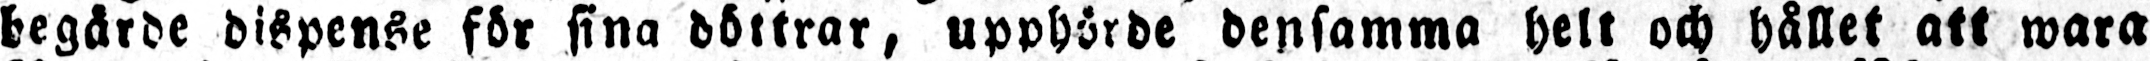begärde dispense för sina döttrar, upphörde densamma helt och hållet att wara
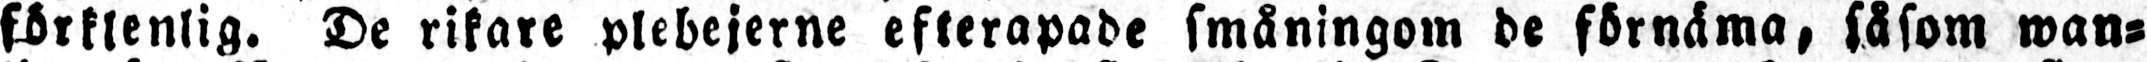förklenlig. De rikare plebejerne efterapade småningom de förnäma, såsom wan-
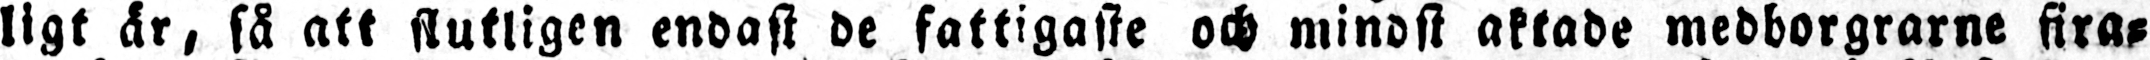ligt är, så att slutligen endast de fattigaste och mindst aktade medborgrarne fira-
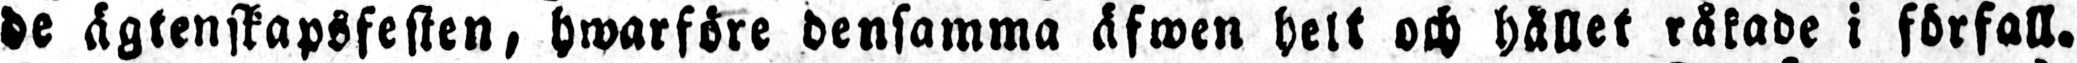de ägtenskapsfesten, hwarföre densamma äfwen helt och hållet råkade i förfall.
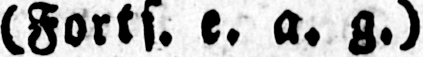(Forts. e. a. g.)
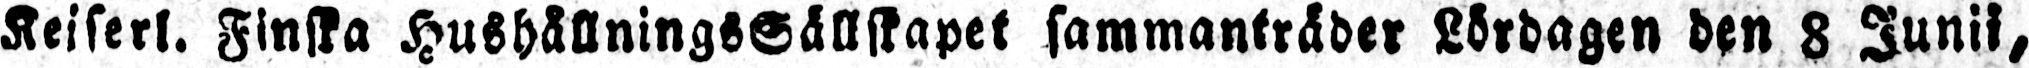Keiserl. Finska HushållningsSällskapet sammanträder Lördagen den 8 Junii,
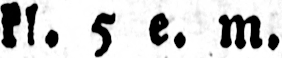kl. 5 e. m.
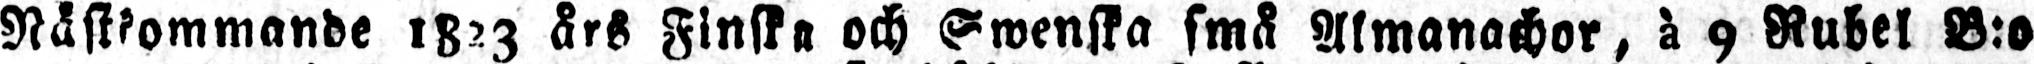Nästkommande 1823 års Finska och Swenska små Almanachor, à 9 Rubel B:o
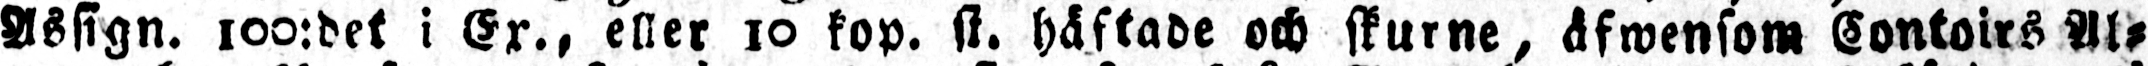Assign. 100:det i Ex., eller 10 kop. st. häftade och skurne, äfwensom Contoirs Al-
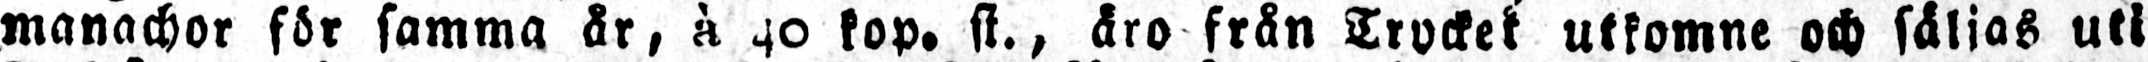manachor för samma år, à 40 kop. st., äro från Trycket utkomne och säljas uti
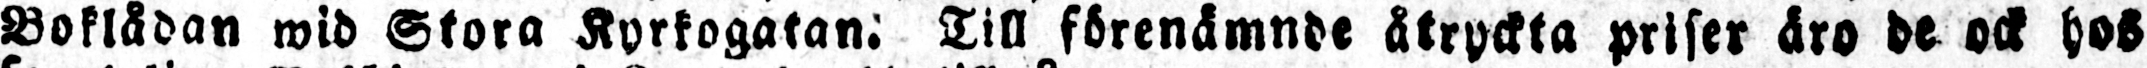Boklådan wid Stora Kyrkogatan. Till förenämnde åtryckta priser äro de ock hos
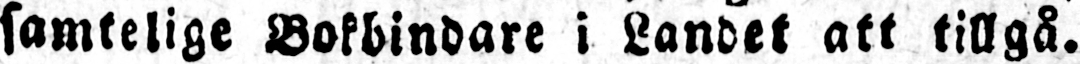samtelige Bokbindare i Landet att tillgå.
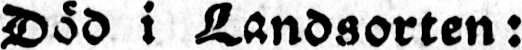Död i Landsorten:
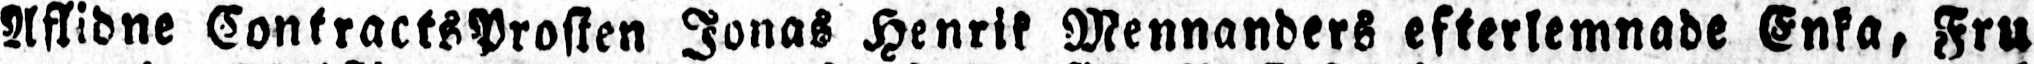Aflidne ContractsProsten Jonas Henrik Mennanders efterlemnade Enka, Fru
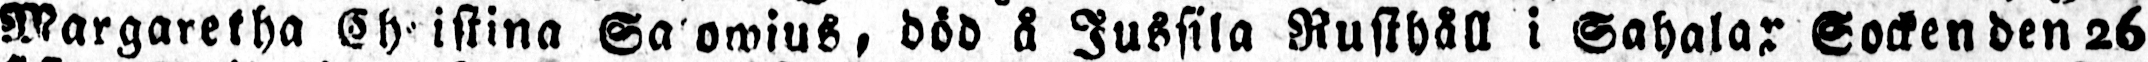Margaretha Ch istina Sa owius, död å Jussila Rusthåll i Sahalax Socken den 26
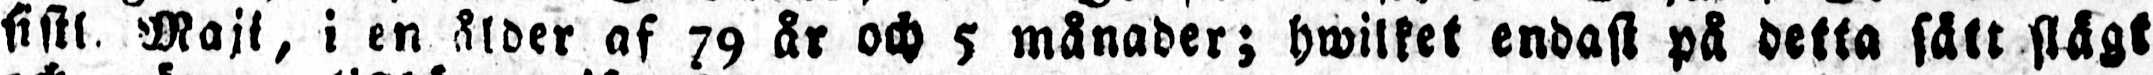sistl. Maji, i en ålder af 79 år och 5 månader; hwilket endast på detta sätt slägt
